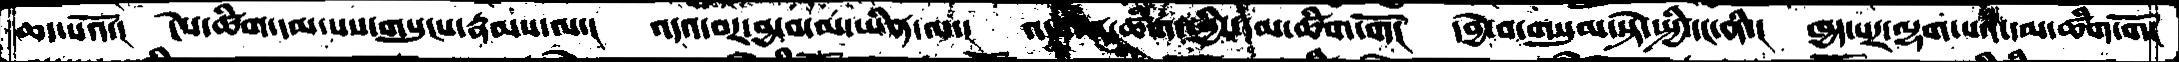ཆད་པའོ་།  ངེས་ཚིག་དམ་པས་གསུངས་རྣམས་ལ་།  འདའ་བར་བྱ་བ་མ་ཡིན་ལ་།  འདས་ན་ཚིག་ཕྱིར་དམ་ཚིག་གོ།  དབྱེ་བ་གསུམ་སྟེ་སྤྱི་དང་ནི་།  ཁྱད་པར་ལྷག་པའི་དམ་ཚིག་གོ།
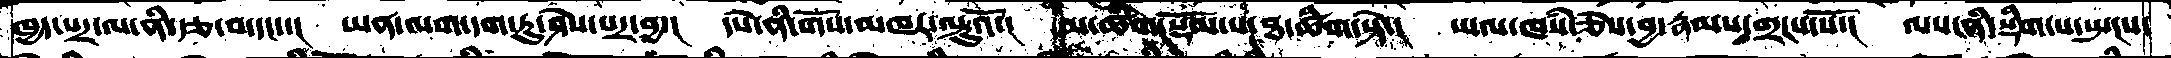ཁྱད་པར་ལ་ནི་རྩ་བ་དང་་།  ཡན་ལག་དག་ཏུ་ཤེས་པར་བྱ་།  དཔེ་ནི་གོས་མཁར་ལྟུའོ་།  དམ་ཚིག་སྡོམ་པ་ཐ་ཚིག་སྟེ་།  ཡལ་ཁཾས་ཅེས་བྱ་རྣམས་གྲངས་སོ་།  ལས་ནི་སྡིག་པ་སྤངས་
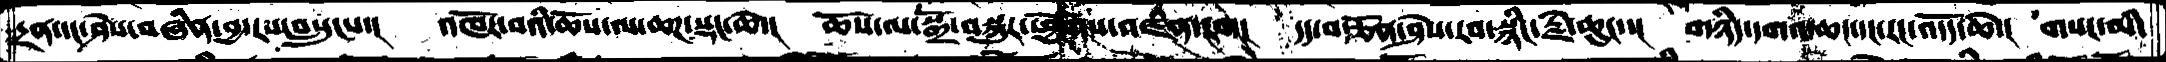དྲན་དང་ཤེས་བཞིན་བྱ་རས་བསྲུངས་།  འཁོར་བའི་ཆོས་ལ་ཆཌ་སྡང་ཆེ་།  ཆོས་ལ་སྒྲོ་བསྐུར་ཕྱོགས་འཛིན་དག།  དད་བརྩོན་ཤེས་རབ་སྙིང་རྗེ་ཆུང་་།  གཉིད་དགའབཆང་དང་རང་འདོད་ཆེ་།   གསང་མི
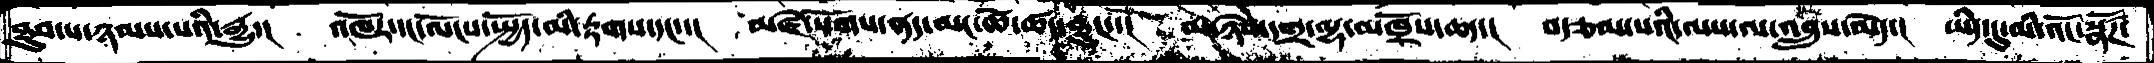ཐུབ་པ་ཉམས་པའི་རྒྱུ་།  འཁོར་དང་ལོངས་སྤྱོད་མི་རྟགས་དང་་། མཛེ་སོགས་ནད་མང་ཚེ་ཚད་ཐུང་་།  མ་ཉེས་དགྲ་ལྷ་མཁྲོས་ཆད་།  བརྩམ་པའི་ལས་ལ་འབྲུས་མེད་།  ཡིད་དུ་མི་འོང་སྣཚོཌ་
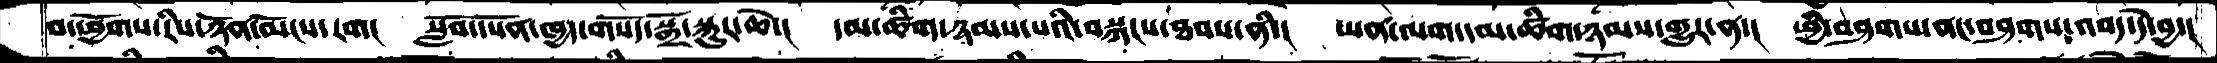བ་ཕྱོགས་རིས་ཉོན་མོངས་རག།  སློབ་དཔོན་ཁྱད་གསོད་སྒྲོ་སྐུར་ཆེ་།  དམ་ཚིག་ཉམས་པའི་བསྐངས་ཐབས་ནི་།  ཡན་ལག་དམ་ཚིག་ཉམས་གྱུར་ན་། ཕྱི་བཤགས་ནང་བཤགས་འབད་དེ་བྱ་།
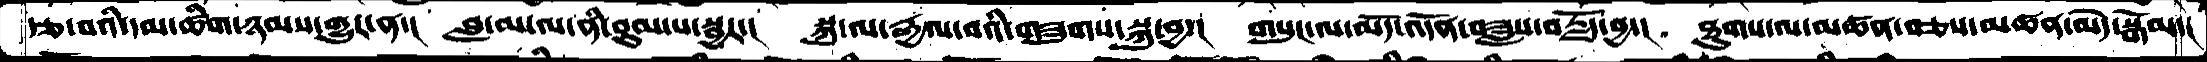རྩ་བའི་དམ་ཚིག་ཉམས་གྱུར་ན་།  བླ་མ་ལ་ནི་བུམ་པ་སྦྱར་།  སྐུ་ལ་རྒྱལ་བའི་གཟུགས་སྐུ་བྱ་།  གསུང་ལ་མོད་འདོན་བཟླས་བརྗོད་བྱ་།  ཐུགས་ལ་མཚན་བཅས་མཚན་མེད་སྒོམ་།
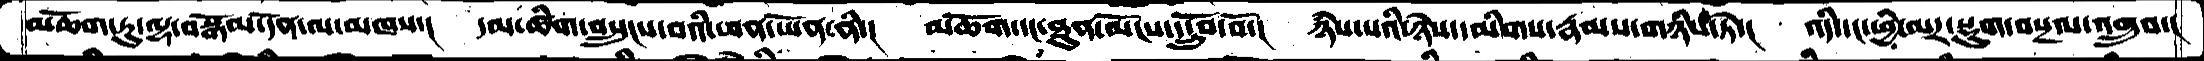མཆོག་ཏུ་ལྷ་བསྒོམ་དོན་ལ་མཁས་།  དམ་ཚིག་བསྲུངས་བའི་ཕན་ཡོན་ནི་།  མཆོག་དང་ཐུན་མོངས་དངྲོུབ་བོ་།  ཉཾས་པའི་ཉེས་དམིགས་རྣམས་གཉིས་ཏེ་།  འདི་དང་ཕྱི་མར་སྡུག་བསྔལ་འགྲུབ་།
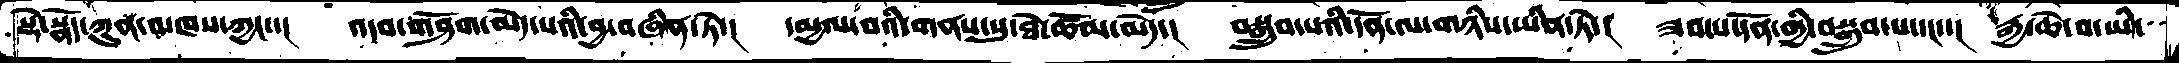སྡེ་སྣོད་ཀུན་མཁས་ཀྱང་་།  འདབ་གཤོག་མེད་པའི་བྱ་བཞིན་ཏེ་།  དམྱལ་བའི་གནས་སུ་ཐེ་ཚོམ་མེད་།  བསྒྲུབ་པའི་དོན་ལ་གཉིས་ཡིན་ཏེ་།  ཟབ་པ་དོན་གྱི་བསྒྲུབ་པ་དང་་།  རྒྱ་ཆེ་བ་ཡི་
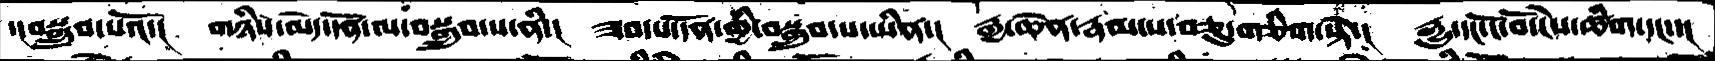་།བསྒྲུབ་པའོ་།  གཉིས་མེད་དོན་ལ་བསྒྲུབ་པ་ནི་།  ཟབ་པ་དོན་གྱི་བསྒྲུབ་པ་ཡིན་།  རྒྱ་ཆེན་རྣམ་པ་བཅུ་གཅིག་སྟེ་།  རྒྱུ་དང་ངོ་བོ་ངེས་ཚིག་དང་་།
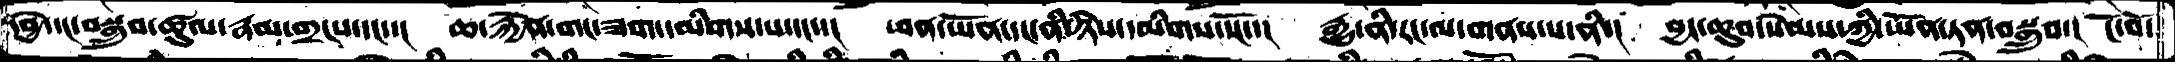དབྱེ་དང་བསྒྲུབ་ཚུལ་རྣམ་གྲངས་དང་་།  ཆ་རྐྱེན་གང་ཟག་དམིགས་པ་དང་་།  ཕན་ཡོན་དང་ནི་ཉེས་དམིགས་དོང་་།  རྒྱུ་ནི་རང་ལ་གནས་པ་ནི་།  བྱང་ཆུབ་སེམས་ཀྱི་ཡོན་ཏན་བསྒྲུབ་། ངོ་བོ་
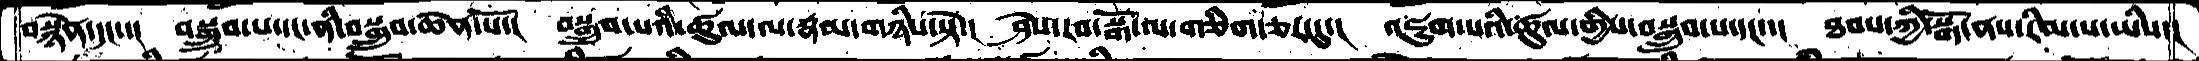བསྙེན་དང་་།  བསྒྲུབ་པ་དང་ནི་བསྒྲུབ་ཆེན་པོ་།  བསྒྲུབ་པའི་ཚུལ་ལ་རྣམ་གཉིས་སྟེ་།  ཤེས་རབ་སྒོ་ལ་གཅིག་ཅར་དུ་།  འཇུག་པའི་ཚུལ་གྱིས་བསྒྲུབ་པ་དང་་།  ཐབས་ཀྱི་སྒོ་ནས་རིམ་པ་ཡིས་།
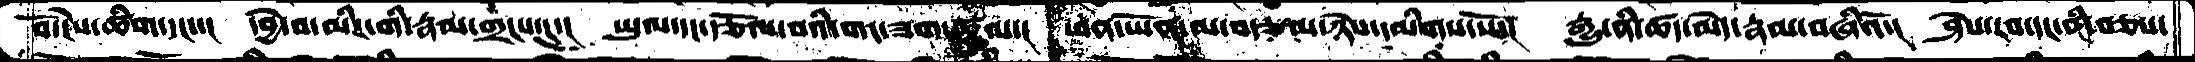བོ་ངེས་ཚིག་དང་་།  དབྱེ་བ་མིང་གི་རྣམ་གྲངས་དུ་།  ཡུལ་དང་རྩོལ་བའི་གང་ཟག་ཚུལ་།  ཕན་ཡོན་མ་བརྩལ་ཉེས་དམིགས་སོ་།  རྒྱུ་ནི་ཚད་མེད་རྣམ་བཞིའོ་།  ཤེས་རབ་དང་ནི་བཅས་
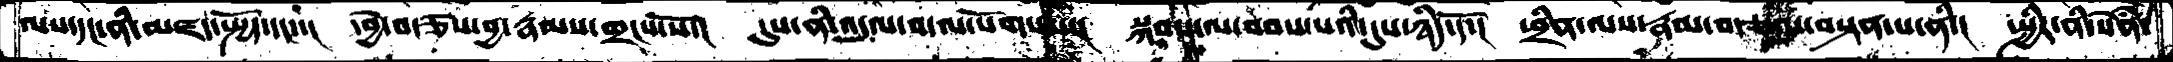ལས་དང་ནི་མཛད་སྤྱོད་དང་་།  དབྱེ་བ་ཅེས་བྱ་རྣམས་གྲངས་སོ་།  དུས་ནི་འདུལ་བ་ལ་སོགས་པ་།  སྐབས་ལ་བབས་པའི་དུས་ཉིད་དོ་། ཕྲིན་ལས་རྣམ་བརྩལ་བསྟན་པ་ནི་།  སྤྱིར་ནི་སེཾན་
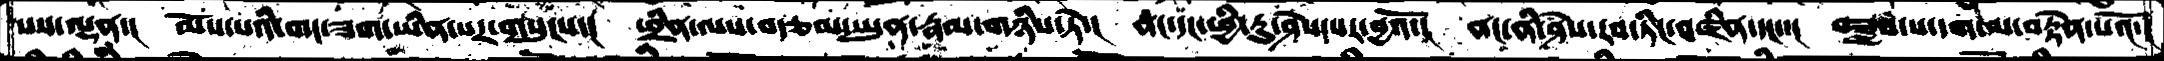པས་ལྡན་།  མོས་པའི་གང་ཟག་ཡིན་པར་གསུངས་།  ཕྲིན་ལས་བརྩམ་ཡུན་རྣམ་གཉིས་ཏེ་།  ནང་དང་ཕྱི་རུ་ཤེས་པར་བྱའོ་།  ནང་ནི་ཤེས་རབ་ཏིང་འཛིན་དང་་།  བཟླས་པ་དག་ལ་བརྟེན་པའོ་།
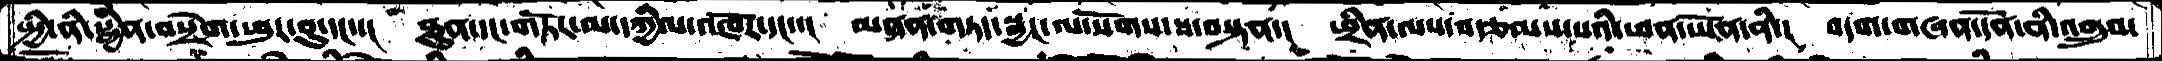སྤྱི་ནི་སྦྱིན་བསྲེག་ཕུར་བུ་དང་་།  ཐུན་དང་གཏོར་མ་དཀྱིལ་འཁོར་དང་་།  མནན་གཏད་སྦྱང་ལ་སོགས་པ་བསྟན་།  ཕྲིན་ལས་བརྩམས་པའི་ཕན་ཡོན་ནི་།  བདག་གཞན་དོན་ནི་འགྲུབ་
